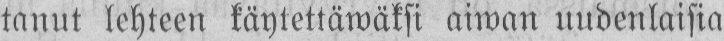tanut lehteen käytettäwäksi aiwan uudenlaisia
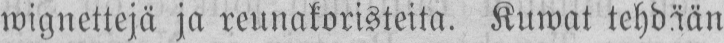wignettejä ja reunakoristeita. Kuwat tehdään
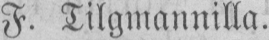F. Tilgmannilla.
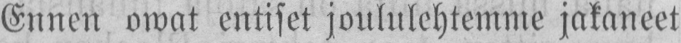Ennen owat entiset joululehtemme jakaneet
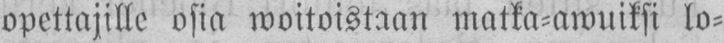opettajille osia woitoistaan matka-awuiksi lo-
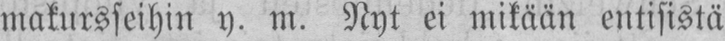makursseihin y. m. Nyt ei mikään entisistä
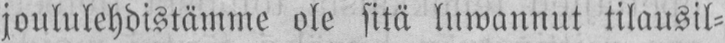joululehdistämme ole sitä luwannut tilausil-
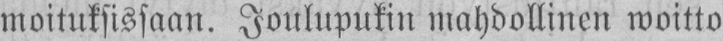moituksissaan. Joulupukin mahdollinen woitto
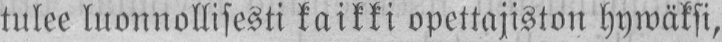tulee luonnollisesti kaikki opettajiston hywäksi,
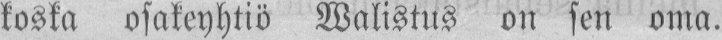koska osakeyhtiö Walistus on sen oma.
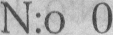N:o 0
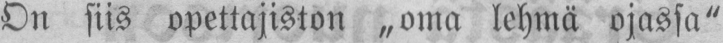On siis opettajiston „oma lehmä ojassa"
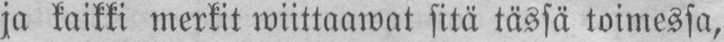ja kaikki merkit wiittaawat sitä tässä toimessa,
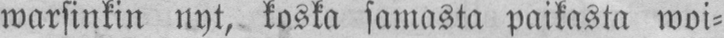warsinkin nyt, koska samasta paikasta woi-
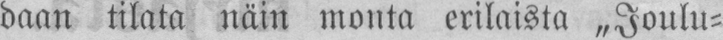daan tilata näin monta erilaista joulu-
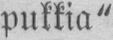pukkia".
